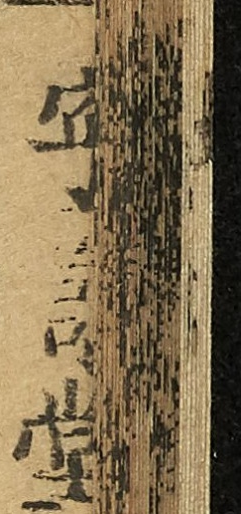寧壽堂
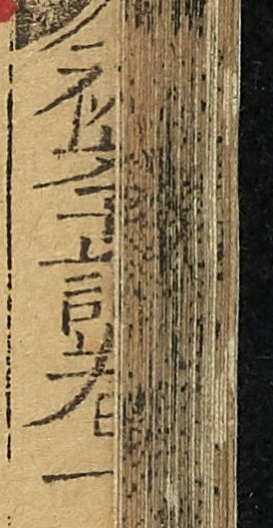初學記卷一
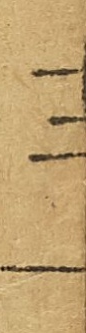十二
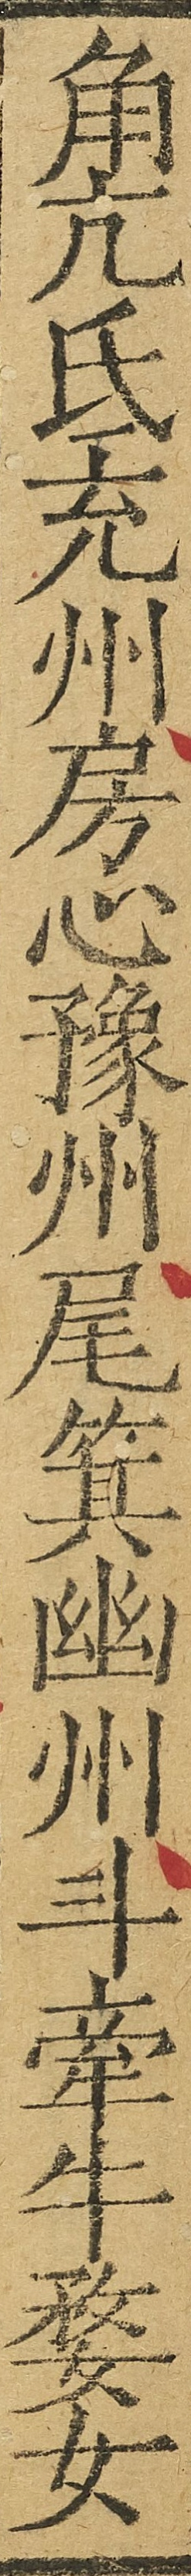角亢氐兗州房心豫州尾箕幽州斗牽牛婺女
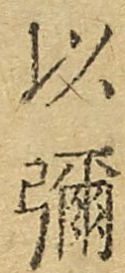以彌
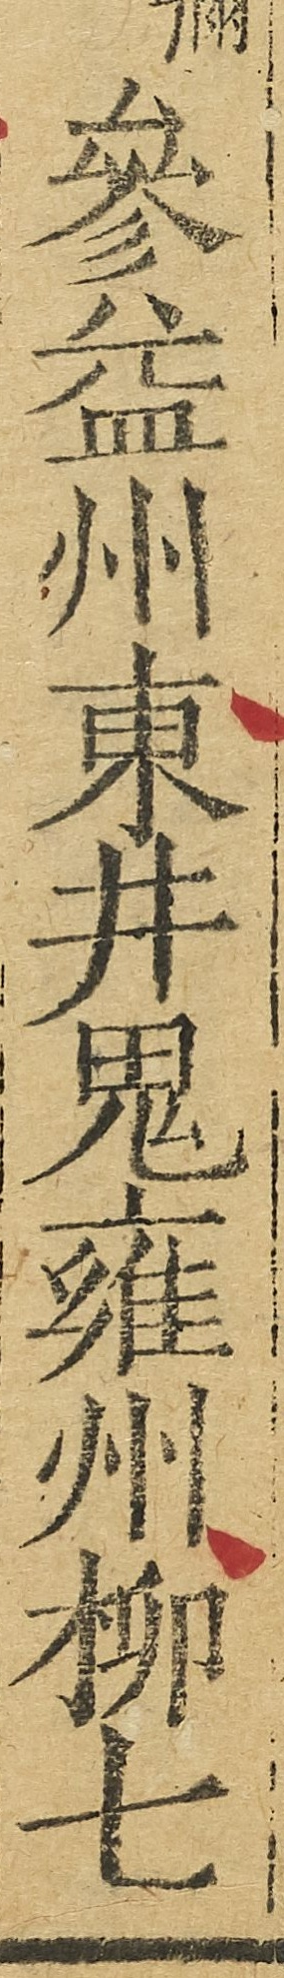參益州東井鬼雍州柳七
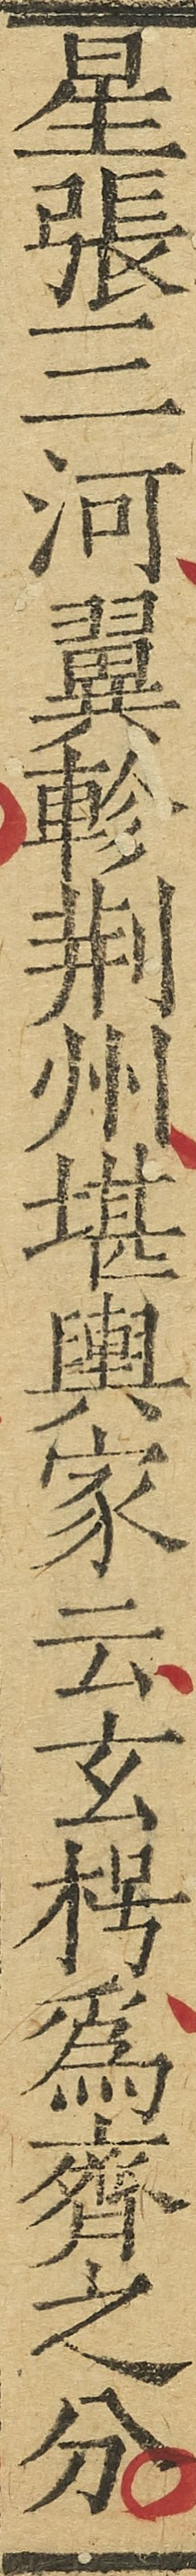星張三河翼軫荊州堪輿家云玄枵爲齊之分
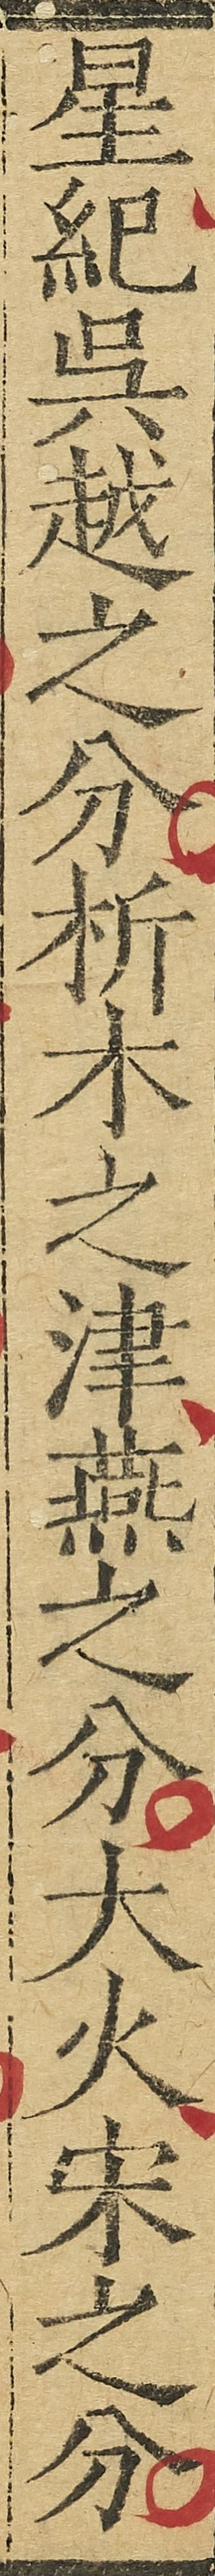星紀吳越之分析木之津燕之分大火宋之分
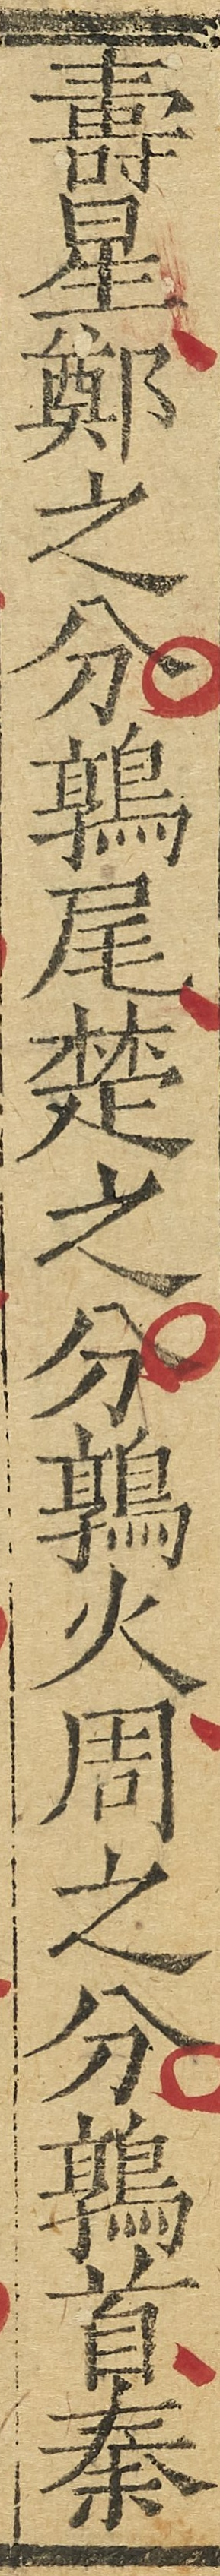壽星鄭之分鶉尾楚之分鶉火周之分鶉首秦
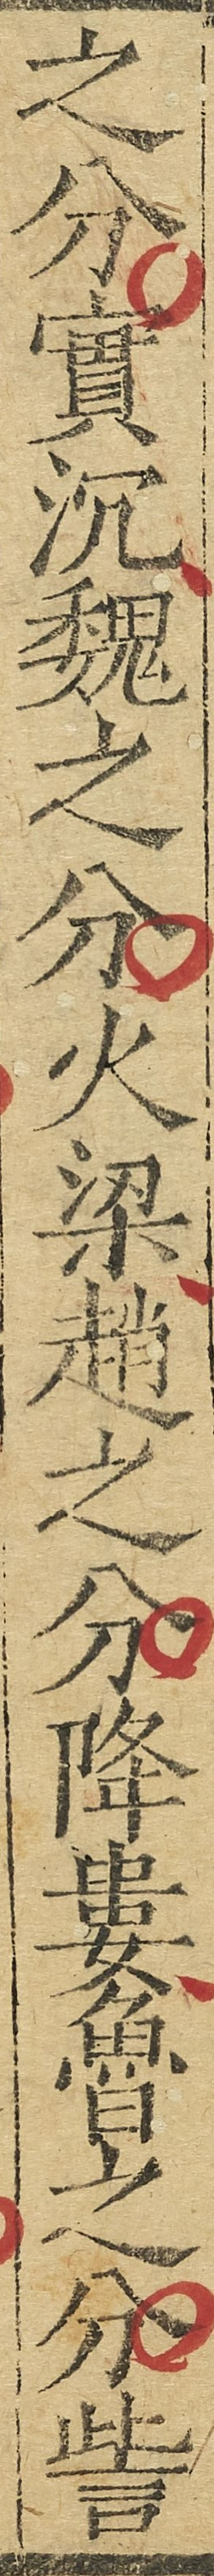之分實沉魏之分火梁趙之分降婁魯之分訾
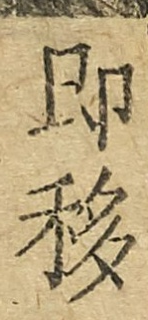卽移
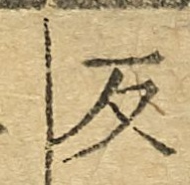反
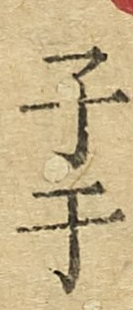子于
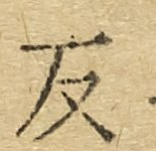反
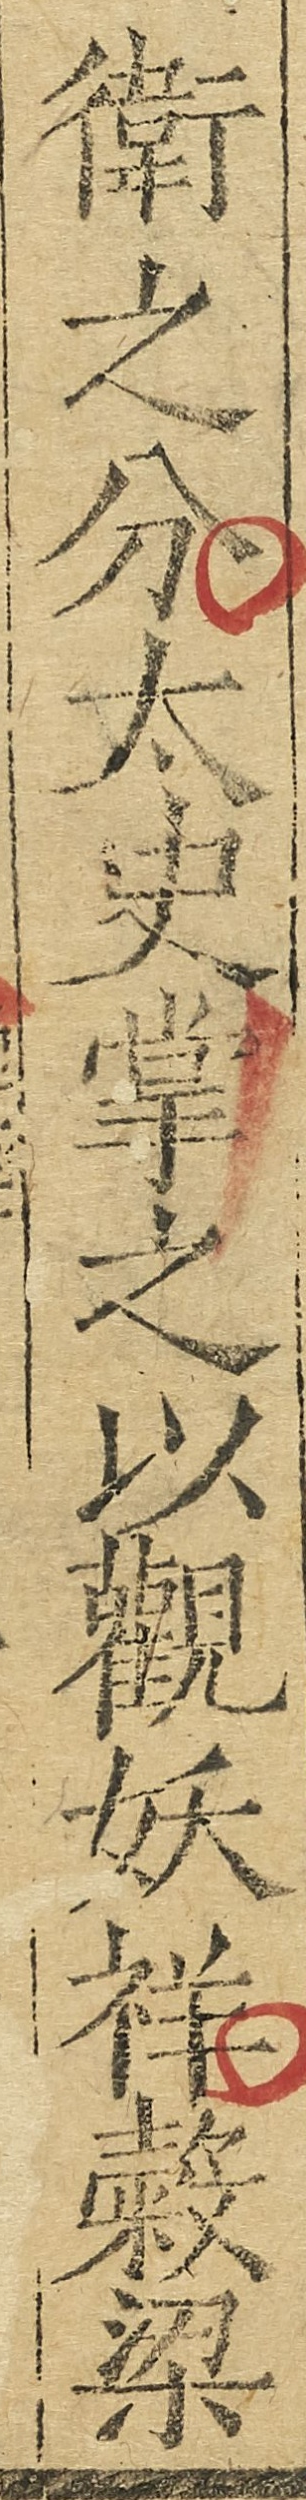衞之分太史掌之以觀妖祥穀梁
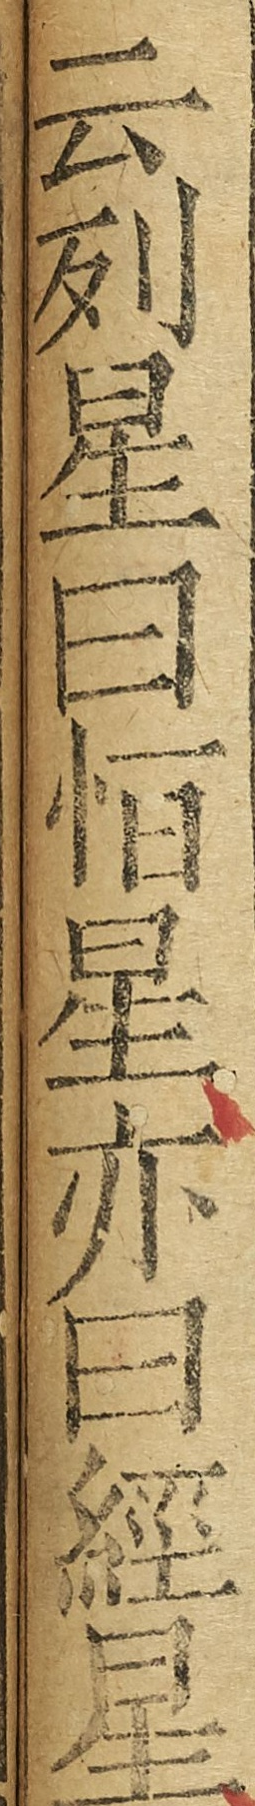云列星曰恆星亦曰經星
